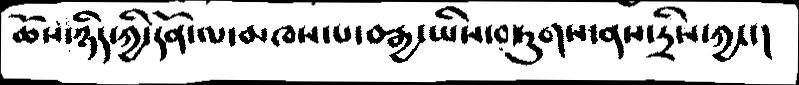ཆོས་ཉིད་ཀྱི་དོན་ལ་མཁས་པ་བརྒྱ་ཡིས་བཏུགས་ནས་དྲིས་ཀྱང་།
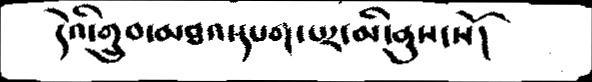དེའི་གྲུབ་མཐའ་དཔག་པར་མི་ནུས་སོ།
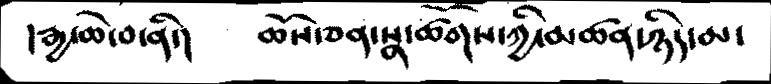།རྒྱ་ཆེ་བ་ནི་།   ཆོས་ཅན་སྣ་ཚོགས་ཀྱི་མཚན་ཉིད་མ་
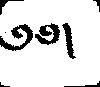༄༅།
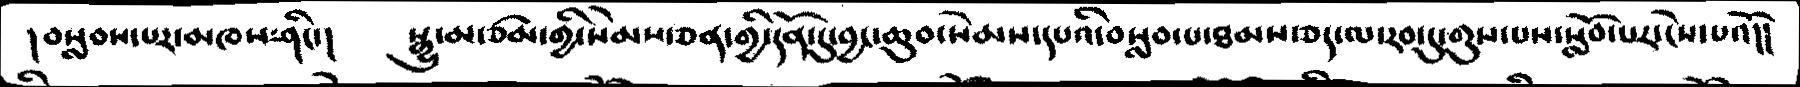།བསླབས་པར་མཁས་ཤིང་།    སྒྱུ་མ་ཙམ་གྱི་སེམས་ཅན་གྱི་དོན་དུ་བྱང་ཆུབ་སེམས་དཔའི་བསླབ་པ་ཐམས་ཅད་ལ་རབ་དུ་གུས་པས་སློབ་པར་ངེས་པའོ།།
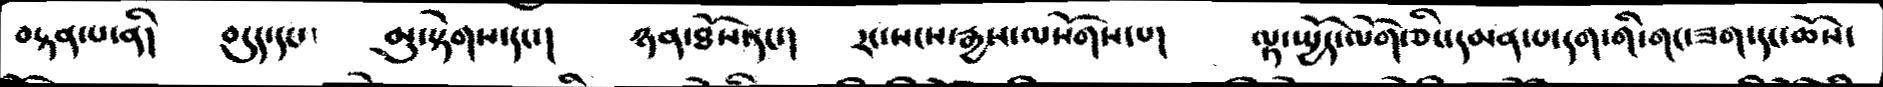བསྟན་པ་ནི།  བདུད་དང་།   མུ་སྟེགས་དང་།   ཉན་ཐོས་དང་།    རང་སངས་རྒྱས་ལསོགས་པ།  ལྟ་སྤྱོད་ལོག་ཅིང་དམན་པ་དག་གི་གང་ཟག་དང་ཆོས་
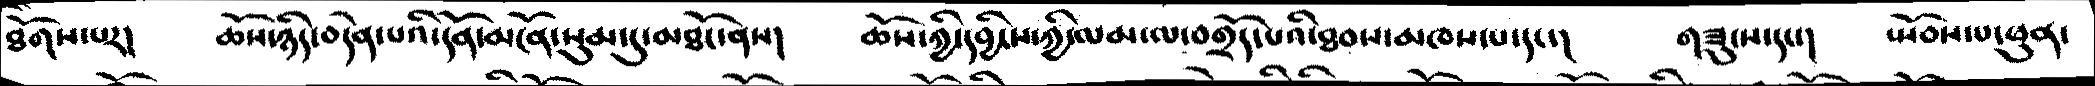ཐོགས་པར།   ཆོས་ཉིད་བདེན་པའི་དོན་མངོན་སུམ་དུ་མཐོང་ནས།   ཆོས་ཀྱི་དབྱིངས་ཀྱི་ལམ་ལ་བགྲོད་པའི་ཐབས་མཁས་པ་དང་།   གཟུངས་དང་།  སྤོབས་པ་ཕུན་
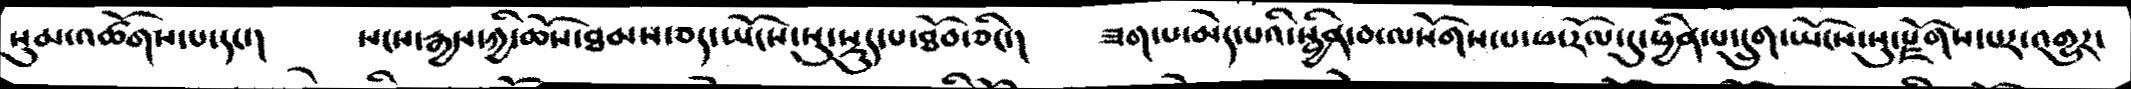སུམ་འཚོགས་པ་དང་།   སངས་རྒྱས་ཀྱི་ཆོས་ཐམས་ཅད་ཡོངས་སུ་སྡུད་པ་ཐོབ་ཅིང་།   ཟག་པ་མེད་པའི་སྦྱིན་བ་ལསོགས་པ་ཕ་རོལ་དུ་ཕྱིན་པ་དྲུག་ཡོངས་སུ་རྫོགས་པར་འགྱུར་
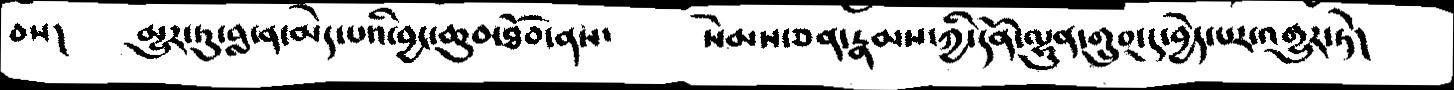བས།   མྱུར་ཏུ་བླ་ན་མེད་པའི་བྱང་ཆུབ་ཐོབ་ནས་    སེམས་ཅན་རྣམས་ཀྱི་དོན་ལྷུན་གྲུབ་དུ་བྱེད་པར་འགྱུར་ཏེ་།
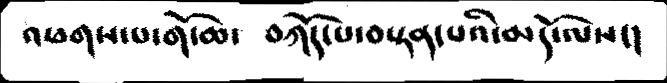འཕགས་པ་གོ་ཆ་    བཀོད་པ་བསྟན་པའི་མདོ་ལས་།
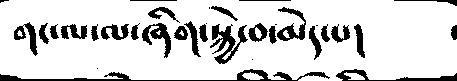གང་ལ་ལ་ཞིག་སྐྱེ་བ་མེད་པ།
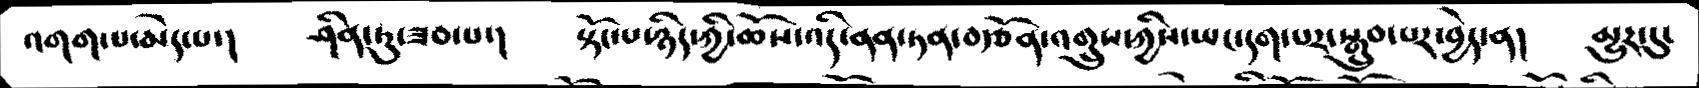འགག་པ་མེད་པ་།   ཤིན་ཏུ་ཟབ་པ་།    སྟོང་པ་ཉིད་ཀྱི་ཆོས་འདི་ནན་ཏན་བརྩོན་འགྲུས་ཀྱིས་ཡང་དག་པར་སྒྲུབ་པར་བྱེད་ན།   མྱུར་དུ་
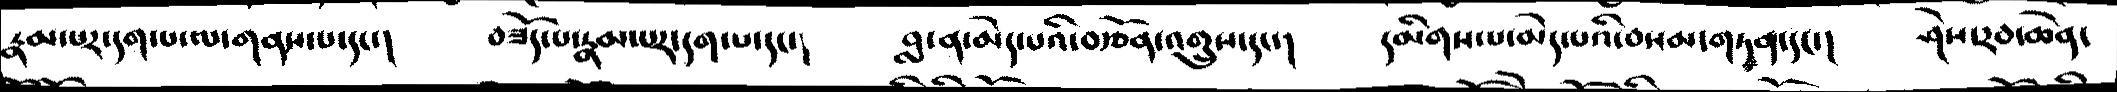རྣམ་པར་དག་པ་ལ་གནས་པ་དང་།   བཟོད་པ་རྣམ་པར་དག་པ་དང་།   བླ་ན་མེད་པའི་བརྩོན་་འགྲུས་དང་།   དམིགས་པ་མེད་པའི་བསམ་གཏན་དང་།   ཤེས་རབ་ཆེན་
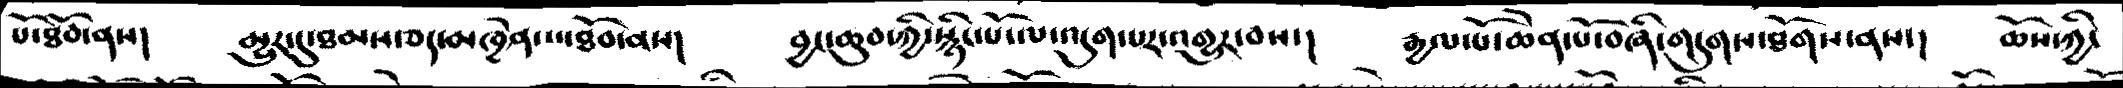པོ་ཐོབ་ནས།   མྱུར་དུ་ཐམས་ཅད་མཁྱེན་པ་ཐོབ་ནས།    བྱང་ཆུབ་ཀྱི་སྙིང་པོ་ལ་འདུག་པར་འགྱུར་བས་།    རྒྱལ་པོ་ཆེན་པོ་བཞི་གདུགས་ཐོགས་ནས་།   ཆོས་ཀྱི་
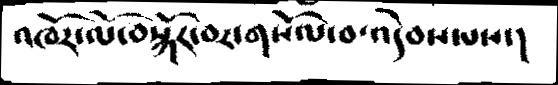འཁོར་ལོ་བསྐོར་བར་གསོལ་བ་འདེབས་པས་།
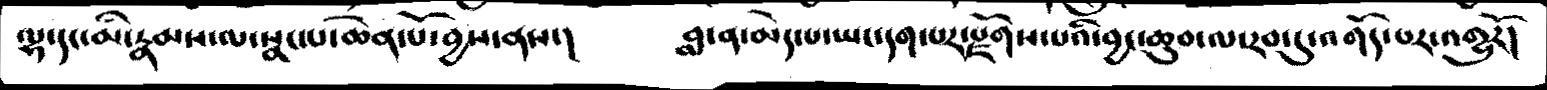ལྷ་དང་མི་རྣམས་ལ་སྣང་པ་ཆེན་པོ་བྱས་ནས་།   བླ་ན་མེད་པ་ཡང་དག་པར་རྫོགས་པའི་བྱང་ཆུབ་ལ་རབ་དུ་འགོད་པར་འགྱུརོ།
